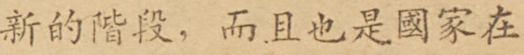新的階段，而且也是國家在
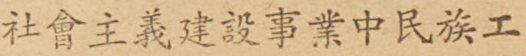社會主義建設事業中民族工
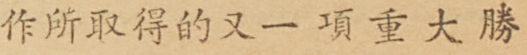作所取得的又一項重大勝
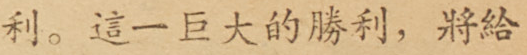利。這一巨大的勝利，將給
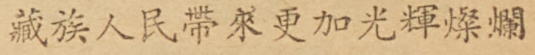藏族人民帶來更加光輝燦爛
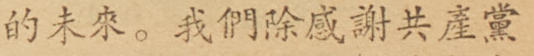的未來。我們除感謝共產黨
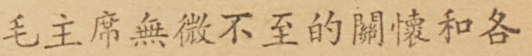毛主席無微不至的關懷和各
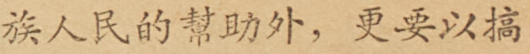族人民的幫助外，更要以搞
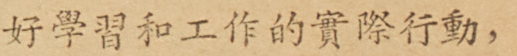好學習和工作的實際行動，
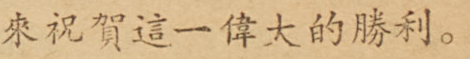來祝賀這一偉大的勝利。
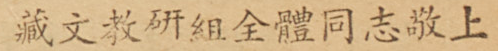藏文教研組全體同志敬上
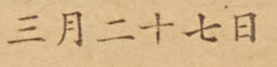三月二十七日
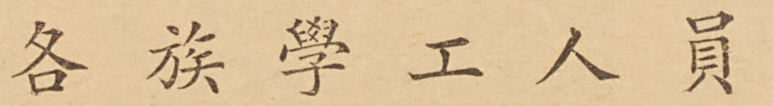各 族 學 工 人 員
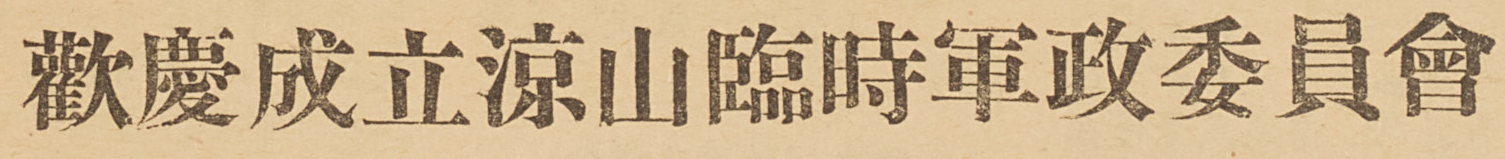歡慶成立涼山臨時軍政委員會
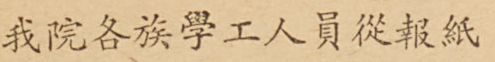我院各族學工人員從報紙
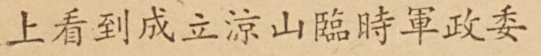上看到成立涼山臨時軍政委
